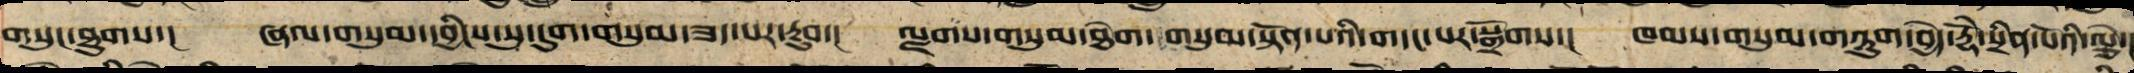གསུང་ཐུགས་། ཞལ་གསུམ་དབྱིངས་སུ་དུག་གསུམ་ཟད་པར་རྔུབ་། ལྗགས་གསུམ་ཐེག་གསུམ་སྟོན་པའི་གདང་པར་སྒྲོགས་། ཁམས་གསུམགཉུག་བྱེད་རྡᨕᨓ་སྲིན་པོའི་ལྕེ་།
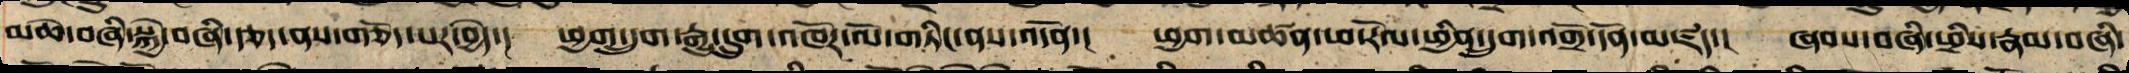མཆེ་བཞི་སྐྱེ་བཞི་རྩད་ནས་གཅོད་པར་བྱེད་། ཕྱག་དྲུག་རྒྱུད་དྲུག་འཁོར་ལོ་གཏིང་ནས་འདོན་། ཕྱག་མཚན་ཕ་རོལ་ཕྱིན་དྲུག་འགྲོ་དོན་མཛད་། ཞབས་བཞི་ཕྲིས་རྣམ་བཞི་
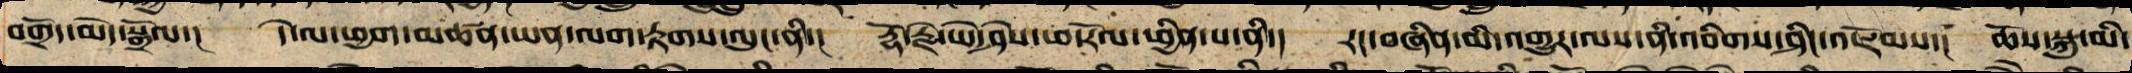བགྲོད་མེད་སྒྲོལ་། དེ་ལ་ཕྱག་མཚན་ཡན་ལག་རྟགས་ལུང་ནི་། རྡོ་རྗེ་ཡེ་ཤེས་ཕ་རོལ་ཕྱིན་པ་ནི་། རང་བཞིན་མི་འགྱུར་ལས་ནི་འབིགས་ཤིང་འཇོམས་། ཆོས་སྐུ་མི་
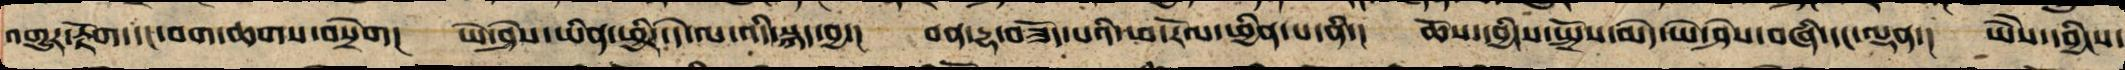འགྱུར་རྟོག་དང་བག་ཆགས་བསྲེག་ ཡེ་ཤེས་ཡིན་ཕྱིར་དེ་ལ་དེ་སྐད་བྱ་། བན་དྷ་བཟོད་པའི་ཕ་རོལ་ཕྱིན་པ་ནི་། ཆོས་དབྱིངས་སྤྲོས་མེད་ཡེ་ཤེས་བཞི་དང་ལྡན་། ཡཻས་དབྱིངས་
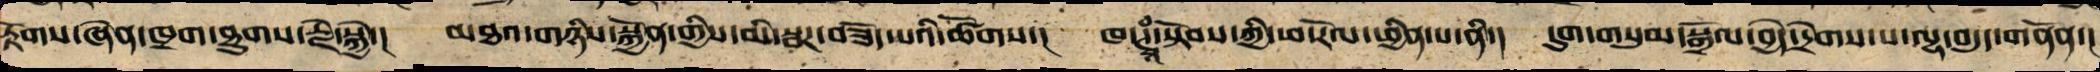རྟོགས་ཞེན་ཁྲག་ཐུགས་རྗེ་སྐྱེ་། མཐའ་གཉིས་སྐྱོན་གྱིས་མི་སྦཌ་བཟོད་པའི་ཚོགས་། ཁ་ཊྭཱཾ་སྟོབས་ཀྱི་ཕ་རོལ་ཕྱིན་པ་ནི་། དུག་གསུམ་སྒྲོལ་བྱེད་དྲེགས་པ་ལྷ་བདུད་གནོན་།
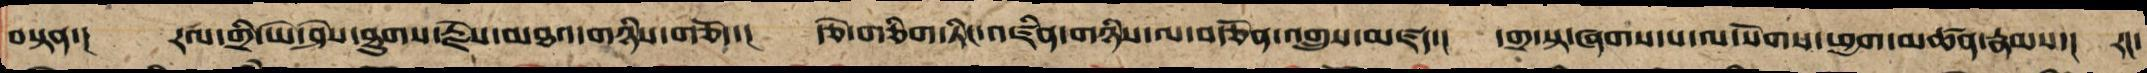བསྟན་། རལ་གྲི་ཡེ་ཤེས་ཐུགས་རྗེས་མཐའ་གཉིས་གཅོད་། རྩེ་གཅིག་ཏིང་འཛིན་གཉིས་ལ་བརྩོན་འགྲུས་མཛད་། དགྲ་སྟ་ཞགས་པ་ལ་སོགས་ཕྱག་མཚན་རྣམས་། རང་
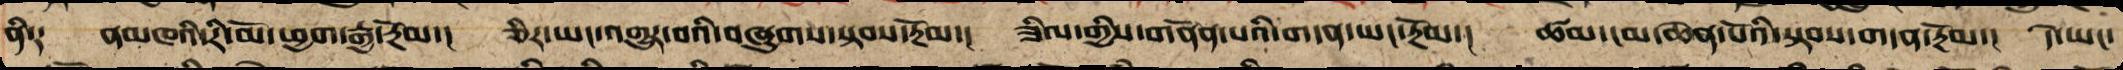ནི༑ ནམཁའི་རི་མོ་ཕྱག་རྒྱ་རྔོམ་། ཅིར་ཡང་འགྱུར་བའི་བཞུགས་སྟབས་རྔོམ་། ཟིལ་གྱིས་གནོན་པའི་གདན་ཡང་རྔོམ་། ཚམ་ངམ་ཆེན་པོའི་སྟབས་གདན་རྔོམ་། དེ་ཡང་
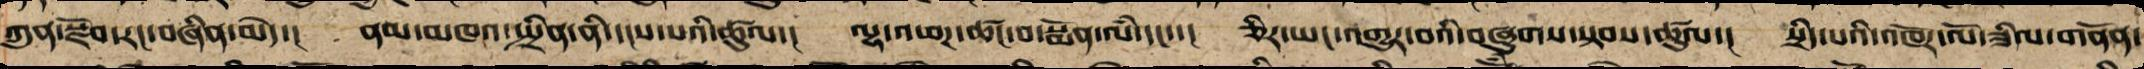ཀུན་སྫོབ་རང་བཞིན་མེད་། ནམ་མཁའ་སྤྲིན་ནི་དྭངས་པའི་ཚུལ་། ལྷ་འཕཌ་ཚངས་པ་སྨོན་ལཾ་དང་་། ཅིར་ཡང་འགྱུར་བའི་བཞུགས་སྟབས་ཚུལ་། སྲིད་པའི་འཁོར་ལོ་ཟིལ་གནོན་
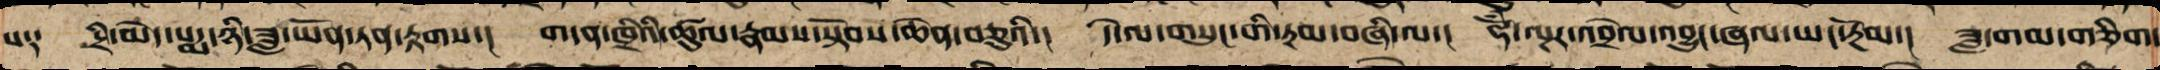པ༑ དྲི་མེད་པདྨ་ཉི་ཟླ་ཡོན་ཏན་རྟགས་། གདན་ཁྲིའི་ཚུལ་རྣམས་སྟོབས་ཆེན་བཅུའི་། དེ་ལ་གསུང་གི་རྔམ་བཞི་ལ་། ཧོཾ་ལྔར་འབྲེལ་འབྱུང་ཞལ་ཡང་རྔོམ་། ཟླ་གམ་གཅིག་
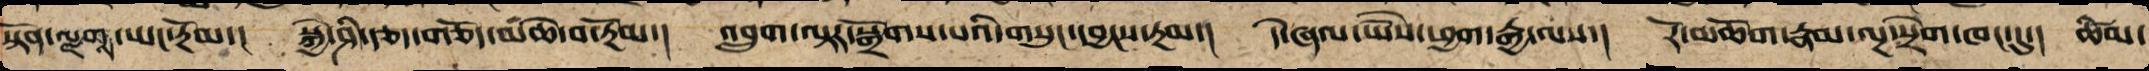སྟོན་ལྗགས་ཡང་རྔོམ་། སྐྱེ་ཤི་རྩད་གཅོད་མཆེ་བ་རྔོམ་། འབྲུག་ལྟར་སྒྲོགས་པའི་གསུང་དབྱངས་རྔམ་། དེ་ཞལ་ཡཻས་ཕྱག་རྒྱ་ལས་། རོ་མཆོག་རྣམ་ལྔ་བསྲེག་ཁང་དུ་། ཚིམ་
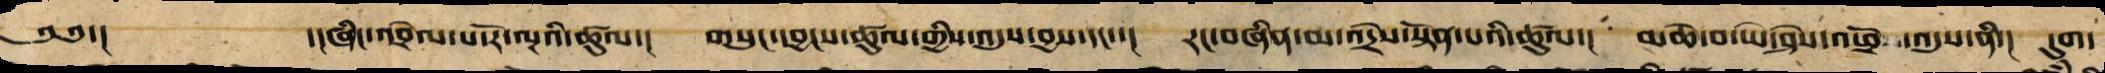༄༅་།  ་།ཞིང་འབྲེལ་པ་རོ་ལྔ་ཡི་ཚུལ་། གསུང་དབང་ཚུལ་གྱིས་འདུས་བྱས་དང་། རང་བཞིན་མ་འདྲེས་སྟོན་པའི་ཚུལ་། མཆེ་བ་ཡེ་ཤེས་འཕྲོ་འདུས་ནི་། དུག་
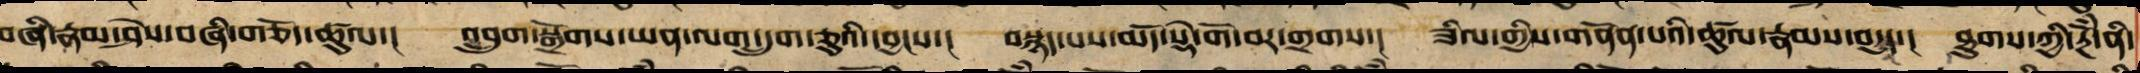བཞི་རྣམ་ཤེས་བཞི་གཅོད་ཚུལ་། འབྲུག་སྒྲོགས་ཡན་ལག་དྲུག་ཅུའི་དབྱངས་། བསྙད་པས་མདོ་སྡེ་གོ་བར་གྲགས་། ཟིལ་གྱིས་གནོན་པའི་ཚུལ་རྣམས་བདུད་། ཐུགས་ཀྱི་རྔོཾ་ནི་
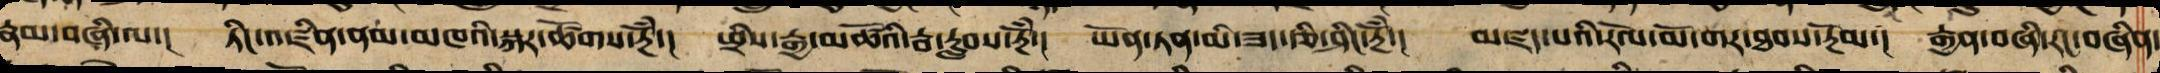རྣམ་བཞི་ལ་། ཏིང་འཛིན་ནམ་མཁའི་སྐར་ཚོགས་རྔོཾ་། ཕྲིན་ལས་རྒྱ་མཚོའི་རྦ་རླབས་རྔོཾ་། ཡོན་ཏན་མི་ཟད་རྩི་ཤིང་རྔོམ་། མཛད་པའི་རོལ་མོ་གར་ཐབས་རྔོམ་། རྒྱན་བཞི་རང་བཞིན་
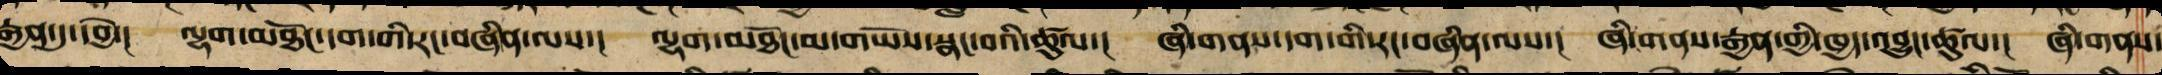རྒྱན་དུ་དབྱེ་། ལྷག་མཐོང་དག་གི་རང་བཞིན་ལས་། ལྷག་མཐོང་མ་གཡོས་སྣང་བའི་ཚུལ་། ཞི་གནས་དག་གི་རང་བཞིན་ལས་། ཞི་གནས་རྒྱན་གྱི་ཁྱད་འབྱུང་ཚུལ་། ཞི་གནས་
